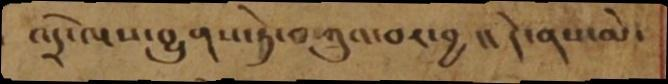འདྲེ་ལས་བྱུགས་ཏེ་བཀུའ་བར་བྱ །། དེ་ནས་མེ་
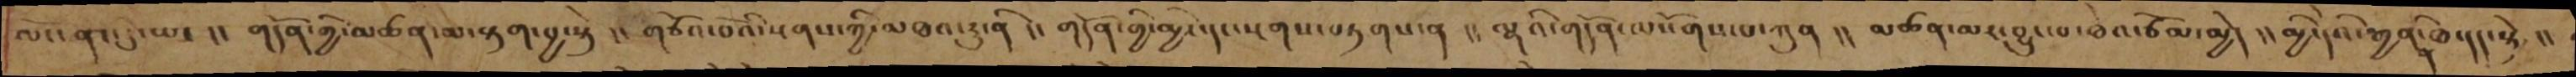ལོང་ནང་དུ་ཡང།། གདོན་གྱི་མཚན་མ་རྟག་བྱ་སྟེ།། གཙོའ་བོའི་སྔགས་ཀྱི་མཐའ་རུ་ནི།། གདོན་གྱི་མྱེ་དང་སྔགས་བཏགས་ན།། ལྷའི་གདོན་ལསོགས་པ་ཀུན།། མཚན་མར་བྱུང་བ་ཐེའ་ཙོམ་མྱེད།། མྱི་དེའི་རྒྱན་ནི་ཐ་དད་སྟེ།།
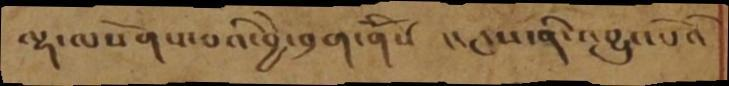ལྷ་ལསོགས་པའི་བྱེ་བྲག་གིས  །།  དུས་ནི་འབྱུང་པོའི
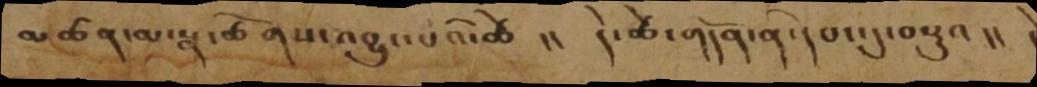མཚན་མ་སྣ་ཚོགས་འབྱུང་པའི་ཚེ །། དེ་ཚེ་གདོན་ནི་དབང་དུ་བསྡུའ །།
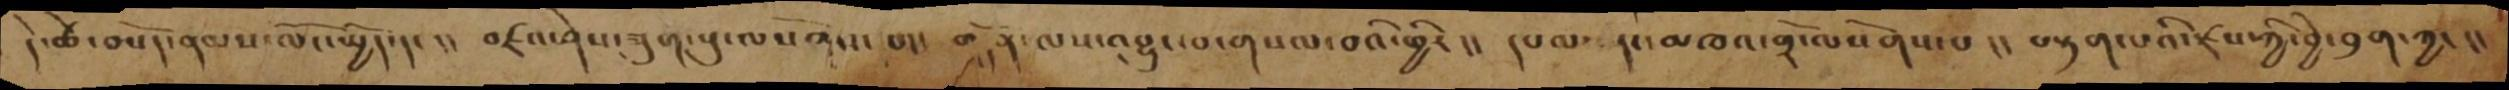དེ་ཚེ་བསོད་ནམས་ལོང་སྤྱོད་དང།། བཛའ་ཤེས་ཟུག་སུ་ལསོགས་པ།།གདོན་ལས་འབྱུང་པ་གསལ་བའི་ཕྱིར།། དཔལ་དང་མཁའ་གྲོ་ལསོགས་པ།། བརྟག་པའི་རྫས་ཀྱི་བྱེ་བྲག་ཀྱང།།
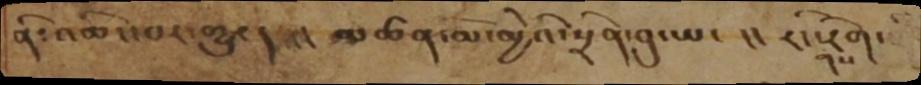ནི༴འཆིང་པར་གྱུརད །། མཚན་མོ་མྱེའི་སྲིན་བུ་ཡང།། རང་གིས་རིག་
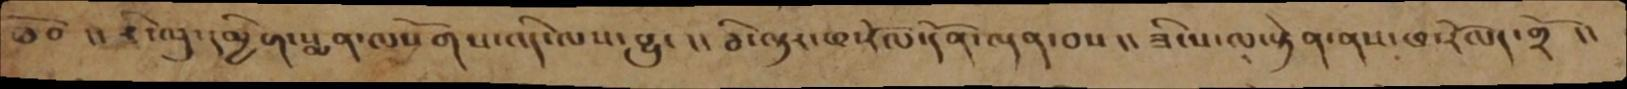ཐོབ །། རི་ལུ་དམྱིག་སྨན་ལསོགས་འདི་ལས་བྱུང །། ཅི་ལྟར་ཕ་རོལ་དོན་ལྡན་བས །། ཟིལ་ལ་རྟེན་ནས་ཕ་རོལད་གྲོ །།
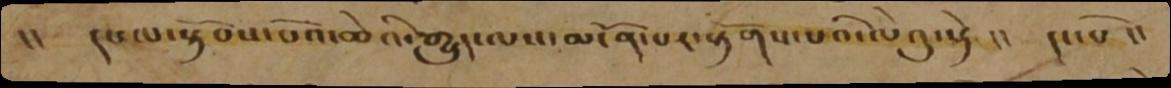།།  དང་ལ་སྟོབས་པོའ་ཆེའི་གྱུད་ལས་མངོན་པར་རྟོགས་པའི་ལེའུ་སྟེ །། དང་པོ །།
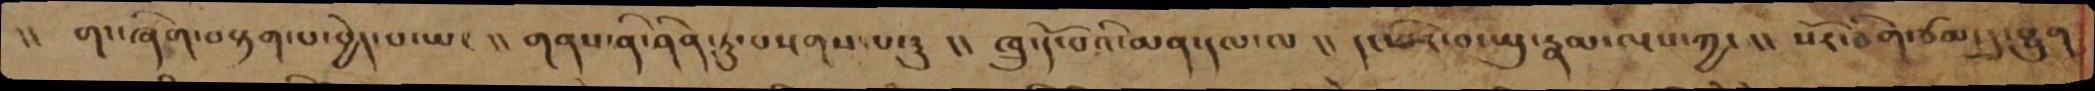།།གང་ཞིག་བརྟག་པ་བྱེད་པ་ཡང།། གནས་ནི་ཤིན་ཏུ་བསྔགས་པ་རུ།། ཁྲུ་དོ་པའི་མན་དལ་ལ།། དང་པོར་བ་སྤུ་རྣམ་ལྔས་ཀྱང།། སོར་ཅིག་ཙམ་དུ་བྱུག
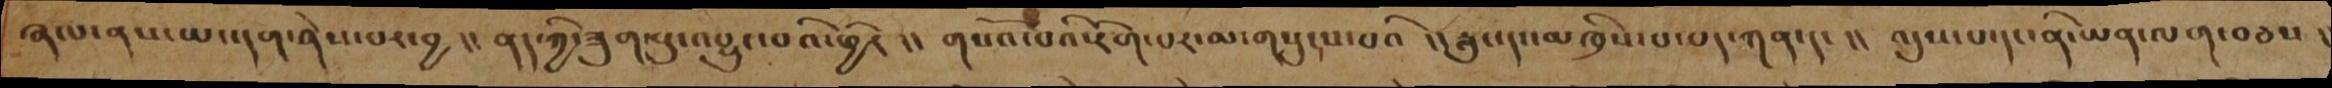ཞལ་ནས་ཡང་དག་ཤེས་པར་བྱ །། ནད་ཀྱི་ཟུག་སུ་འབྱུང་བའི་ཕྱིར  །། གསོའ་པའི་རིག་པར་མ་གསུངས་པའི །། རླུང་དང་མཁྲིས་པ་བད་ཀན་དང །། འདུས་པ་དང་ནི་ཡན་ལག་བཅས །།
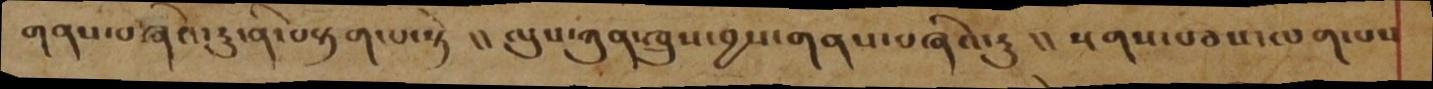གནས་བཞིའ་ཏུ་ནི་བརྟག་པ་སྟེ  །། ལུས་ཀུན་ཁྲུསབྱས་གནས་བཞིའ་ཏུ །།  སྔགས་བཅས་ལག་པས
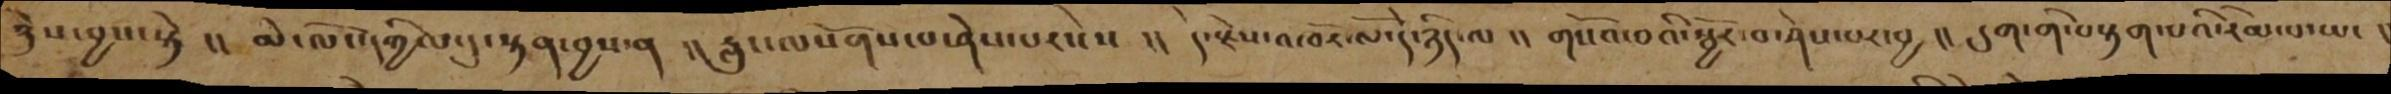ཉེས་བྱས་སྟེ །། མེ་ལོང་དཀྱིལ་དུ་སྟན་བྱས་ན །། རླུང་ལསོགས་པ་ཤེས་པར་ངེས  །། དེ་རྗེས་འཁོར་ལོ་དེ་ཉིད་ལ །། གསོའ་བའི་སྦྱོར་བ་ཤེས་པར་བྱ །། དུག་གི་བརྟག་པའི་རིམ་པ་ཡང །
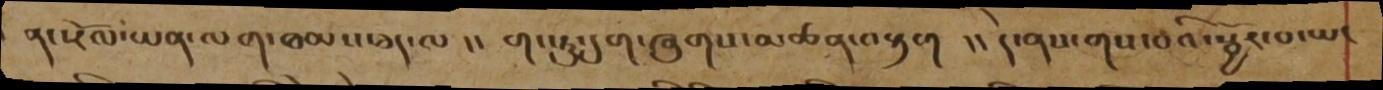ནང་རོལ་ཡན་ལག་ཐམས་ཅད་ལ  །། གང་ཏུ་དུག་ཞུགས་མཚན་བརྟག །། དེ་ནས་གས་བའི་སྦྱོར་བ་ཡང
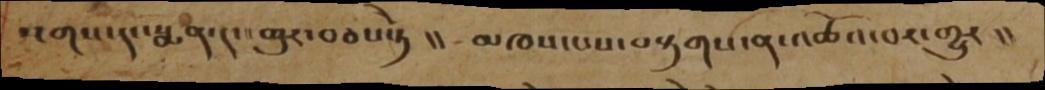སྔགས་དང་སྨན་དང་ཁུར་བཅས་ཏེ །།  མཁས་པས་བརྟགས་ན་འཚོའ་བར་གྱུར  །།
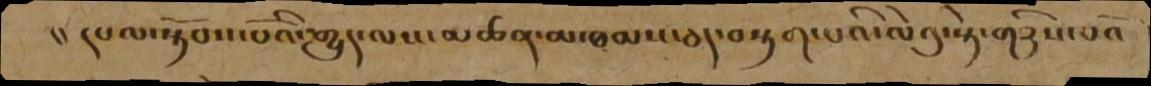།།  དཔལ་སྟོབས་པོའི་རྒྱུད་ལས་མཚན་མ་ཐམས་ཅད་བརྟག་པའི་ལེའུ་སྟེ་གཉིས་པའོ
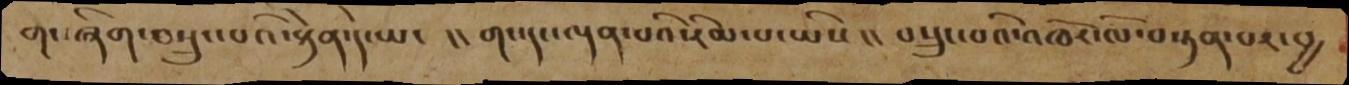གང་ཞིག་བསྲུང་པའི་སྟེན་དེ་ཡང །། གང་དང་ལྡན་པའི་རིམ་པ་ཡིས །། བསྲུང་བའི་འཁོར་ལོ་བསྟན་པར་བྱ
